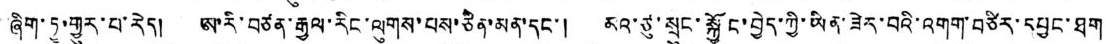ཞིག་ཏུ་གྱུར་པ་རེད། ཨ་རི་བཙན་རྒྱལ་རིང་ལུགས་པས་ཅིན་མན་དང་། མའ་ཙུ་སྲུང་སྐྱོང་བྱེད་ཀྱི་ཡིན་ཟེར་བའི་འགག་བཙིར་དཔྱང་ཐག
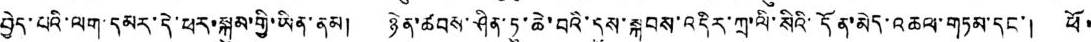བྱེད་པའི་ལག་དམར་དེ་ཕར་སྐུམ་གྱི་ཡིན་ནམ། ཉེན་ཚབས་ཤིན་ཏུ་ཆེ་བའི་དུས་སྐབས་འདིར་ཀྲ་ལི་སིའི་དོན་མེད་འཆལ་གཏམ་དང་། ཕོ་
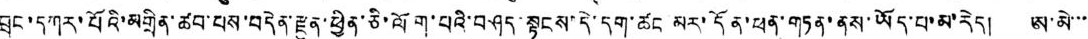བྲང་དཀར་པོའི་མགྲིན་ཚབ་པས་བདེན་རྫུན་ཕྱིན་ཅི་ལོག་པའི་བཤད་སྟངས་དེ་དག་ཚང མར་དོན་ཕན་གཏན་ནས་ཡོད་པ་མ་རེད། ཨ་མེ་་་
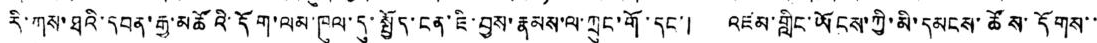རི་ཀས་ཐའི་དབན་རྒྱ་མཚོའི་དོག་ལམ་ཁུལ་དུ་སྤྱོད་ངན་ཇི་བྱས་རྣམས་ལ་ཀྲུང་གོ་དང་། འཛམ་གླིང་ཡོངས་ཀྱི་མི་དམངས་ཚོས་དོགས་་
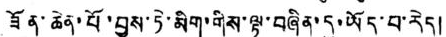ཟོན་ཆེན་པོ་བྱས་ཏེ་མིག་གིས་ལྟ་བཞིན་དུ་ཡོད་པ་རེད།
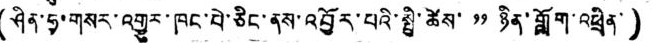(ཤིན་ཧྭ་གསར་འགྱུར་ཁང་པེ་ཅིང་ནས་འབྱོར་པའི་སྤྱི་ཚེས་ ༡༡ ཉིན་གློག་འཕྲིན་)
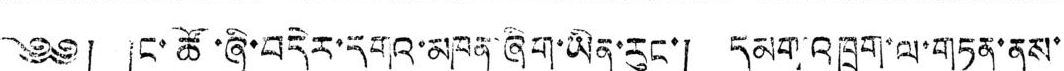༄༅། །ང་ཚོ་ཞི་བདེར་དག་མཁན་ཞིག་ཡིན་རུང་། དམག་འཁྲུག་ལ་གཏན་ནས་
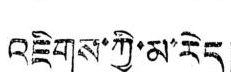འཇིགས་ཀྱི་མ་རེད།
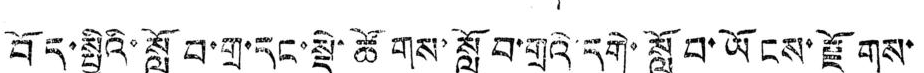བོད་སྤྱིའི་སློབ་གྲ་དང་སྡེ་ཚོགས་སློབ་གྲའི་དགེ་སློབ་ཡོངས་རྫོགས་
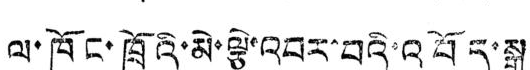ལ་ཁོང་ཁྲོའི་མེ་ལྕེ་འབར་བའི་འབོད་སྒྲ།
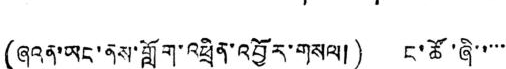(ཞའན་ཡང་ནས་གློག་འཕྲིན་འབྱོར་གསལ།) ང་ཚོ་ཞི་་་་་
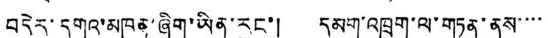བདེར་དགའ་མཁན་ཞིག་ཡིན་རུང་། དམག་འཁྲུག་ལ་གཏན་ནས་་་་
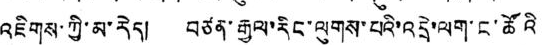འཇིགས་ཀྱི་མ་རེད། བཙན་རྒྱལ་རིང་ལུགས་པའི་འདྲེ་ལག་ང་ཚོའི
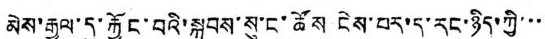མེས་རྒྱལ་དུ་སྐྱོང་བའི་སྐབས་སུ་ང་ཚོས ངེས་པར་དུ་རང་ཉིད་ཀྱི་་་
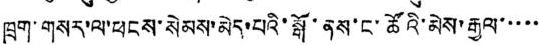ཁྲག་གསར་ལ་ཕངས་སེམས་མེད་པའི་སྒོ་ནས་ང་ཚོའི་མེས་རྒྱལ་་་་་
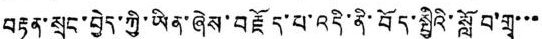བརྟན་སྲུང་བྱེད་ཀྱི་ཡིན་ཞེས་བརྗོད་པ་འདི་ནི་བོད་སྤྱིའི་སློབ་གྲྭ་་་
